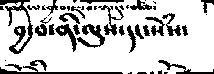བྱ་བ་ནི་ལུས་དང་སེཾས་
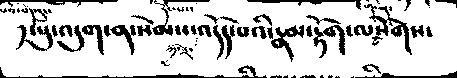ད་པུ་འདུག་ན་སེམས་འདོད་པའི་རྣམ་རྟོག་ལསོགས་
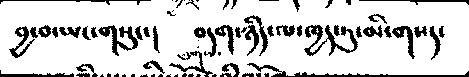བྱ་བ་ཡང་གསུང་།   བདག་ཉིད་ལ་ཁྱད་ཏུ་མི་གསད་
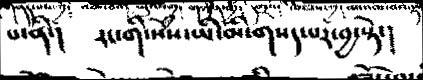པ་ནི་།  རང་གི་སེཾས་ཡི་མི་གསད་པར་བྱ་སྟེ་།
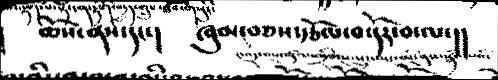ཆོས་ནས་དང་།  ཞུམ་བཅས་རྩོལ་བ་དོར་བ་ལ་།།
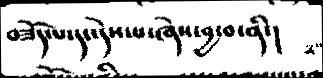བཟོད་པ་དང་སདེས་པ་ཞེས་བྱ་བ་ནི་།
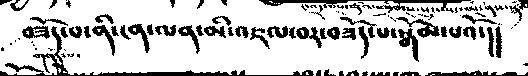གནོད་བཟོད་པ་ནི་ན་ལན་མི་འཇལ་བར་བཟོད་པ་སྒོམ་པའོ་།།
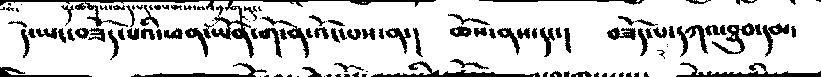དེ་ཡང་བཟོད་པའི་ཕན་ཡོན་གདོན་འོང་པས་ན་།  ཆོས་ནས་དང་།   བཟོད་པ་དཀའ་ཐུབ་དམ་
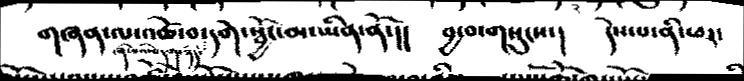གཞན་ལ་འཚེ་བ་དགེ་སྦྱོང་མ་ཡིན་ནོ་།།  བྱ་བ་གསུངས་།  དེས་པ་ནི་ཕར་
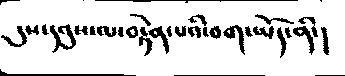དུས་དབུས་ལ་བརྟེན་པའི་བག་ཡོད་ནི་།
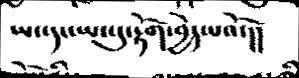ཡང་དང་ཡང་དུ་རྟོག་བྱེད་པའོ་།།
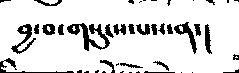བྱ་བ་གསུངས་པས་ན་།
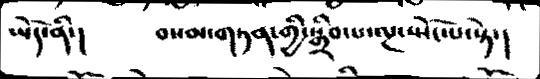ཡོད་ནི་།   བསམ་གཏན་གྱི་སྒྲིབ་ལ་ལྔ་སྤོང་པ་སྟེ་།
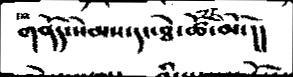གནོད་སེམས་དང་ཐེ་ཚོཾ་མོ་།།
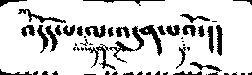འདོད་པ་ལ་འདུན་པའོ་།།
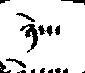ཉེས་
